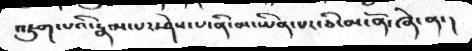འཇུག་པའི་རྣམ་པར་ཤེས་པ་ནི་མ་ཡིན་པར་ཅི་མངོན་ཞེ་ན་།
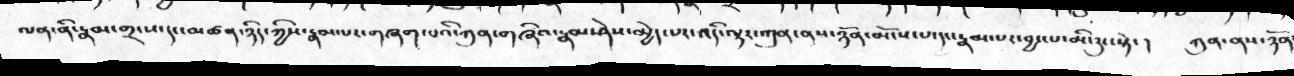ལན་ནི་རྣམ་གྲངས་དང་མཚན་ཉིད་ཀྱིས་རྣམ་པར་གཞག་པའི་ཀུན་གཞིའ་རྣམ་ཤེས་མྱེད་པར་འདི་ལྟར་ཀུན་ནས་ཉོན་མོངས་པ་དང་རྣམ་པར་བྱང་པ་མི་རུང་སྟེ་།  ཀུན་ནས་ཉོན་
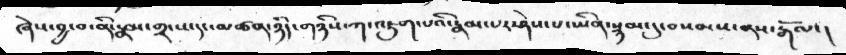ཞེས་བྱ་བ་ནི་རྣམ་གྲངས་དང་མཚན་ཉིད་གཉིས་ཀ་འཇུག་པའི་རྣམ་པར་ཤེས་པ་ཡིན་སྙམ་དུ་བསམས་ནས་རྒོལ་།
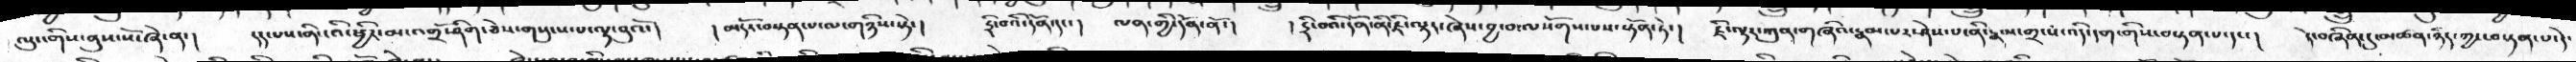ལུང་གིས་ནུས་སོ་ཞེ་ན་།   དད་པས་ནི་འི་ཕྱིར་མ་འགྲོ་ཤིག་ཅེས་གསུངས་པ་ལྟ་བུའོ་།   །མདོར་བསྟན་པ་ལ་གཉིས་སྟེ་།  དྲི་བའི་དོན་དང་།  ལན་གྱི་དོན་ནོ་།  །དྲི་བའི་དོན་ནི་ཇི་ལྟར་ཞེས་བྱ་བ་ལསོགས་པས་སྟོན་ཏེ་།  ཇི་ལྟར་ཀུན་གཞིའ་རྣམ་པར་ཤེས་པ་ནི་རྣམ་གྲངས་འདི་དག་གིས་བསྟན་པ་དང་།   དེ་བཞིན་དུ་མཚན་ཉིད་ཀྱང་བསྟན་པ་དེ་
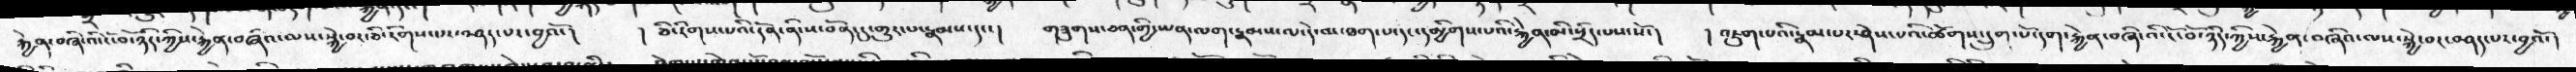རྐྱེན་བཞི་འི་ངོ་བོ་ཉིད་ཀྱིས་རྐྱེན་བཞིའ་ལས་སྐྱེ་བར་ཅི་རིགས་པར་བཤད་པར་བྱའོ་།   ། ཅི་རིགས་པའི་དོན་ནི་ས་བོན་དུ་གྱུར་པ་རྣམས་དང་།  གཟུགས་ཅན་གྱི་ཡན་ལག་རྣམས་ལ་དེ་མ་ཐག་པ་དང་དམྱིགས་པའི་རྐྱེན་མི་སྲིད་པས་སོ་།  །འཇུག་པའི་རྣམ་པར་ཤེས་པའི་ཚོགས་དྲུག་པོ་རྐྱེན་བཞི་འི་ངོ་བོ་ཉིད་ཀྱིས་རྐྱེན་བཞིའ་ལས་སྐྱེ་བར་བཤད་པར་བྱའོ་།
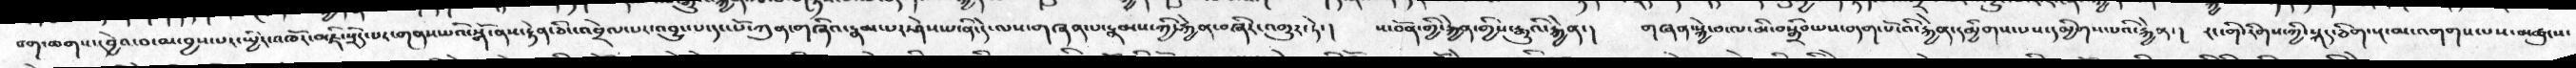བག་ཆགས་དབྱེའ་བ་མ་བྱས་པར་སྤྱིར་འཁོར་བ་ཇི་སྲིད་པར་གནས་པའི་སྒོ་ནས་རྟེན་ཅིང་འབྲེལ་པར་འབྱུང་པ་དང་པོ་ཀུན་གཞིའ་རྣམ་པར་ཤེས་པ་ནི་དེ་ལས་གཞན་པ་རྣམས་ཀྱི་རྐྱེན་བཞིར་འགྱུར་ཏེ་།   ས་བོན་གྱི་རྐྱེན་གྱིས་རྒྱུའི་རྐྱེན་།  གཞན་སྐྱེ་བ་ལ་མི་བསྒྲིབ་པས་བདག་པོ་འི་རྐྱེན་དམྱིགས་པས་དམྱིགས་པའི་རྐྱེན་།  རང་གི་རིགས་ཀྱི་སྐད་ཅིག་སྔ་མ་འགགས་པས་མཚུངས་
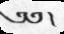༄༅།
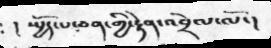༴  ། སྤྱོད་པ་ཅན་གྱི་རྟེན་འབྲེལ་ལོ་།
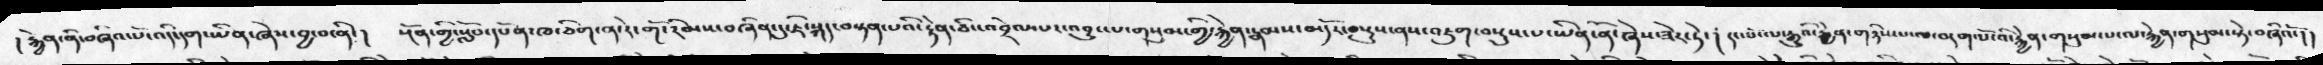།རྐྱེན་ནི་བཞིའ་པོ་འདི་དག་ཡིན་ཞེས་བྱ་བ་ནི་།  སྔོན་གྱི་སློབ་དཔོན་ཁ་ཅིག་ན་རེ་གོ་རིམས་བཞིན་དུ་ཇི་སྐད་བསྟན་པའི་རྟེན་ཅིང་འབྲེལ་པར་འབྱུང་པ་གསུམ་གྱི་རྐྱེན་རྣམས་མདོར་བསྡུས་ནས་འཇུག་བསྡུས་པ་ཡིན་ནོ་ཞེས་ཟེར་ཏེ་།  དང་པོ་ལ་རྒྱུའི་རྐྱེན་གཉིས་པ་ལ་བདག་པོ་འི་རྐྱེན་གསུམ་པ་ལ་རྐྱེན་གསུམ་སྟེ་བཞིའོ་།།
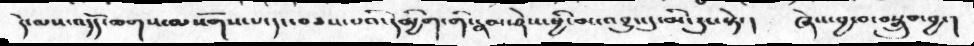དེ་ལས་འདོད་ཆགས་ལསོགས་པ་དང་བཅས་པའི་དམྱིག་གི་རྣམ་ཤེས་ཕྱི་མ་འབྱུང་དུ་མི་རུང་སྟེ་།   ཞེས་བྱ་བ་བསྒྲུབ་བྱ་།
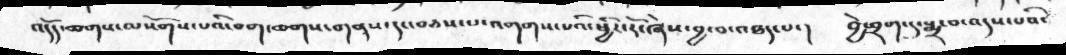འདོད་ཆགས་ལསོགས་པའི་བག་ཆགས་གནས་དང་བཅས་པ་འགགས་པའི་ཕྱིར་རོ་ཞེས་བྱ་བ་འཐད་པ་།   བྱེ་བྲག་དུ་སྨྲ་བ་འདས་པའི་
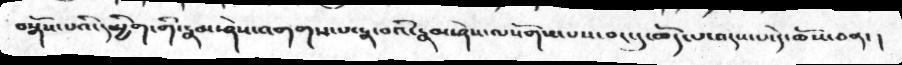བསྒོས་པའི་དམྱིག་གི་རྣམ་ཤེས་འགགས་པ་རྣ་བའི་རྣམ་ཤེས་ལསོགས་པས་བར་དུ་ཆོད་པ་འདས་པ་དེ་ཆོས་ཅན་།
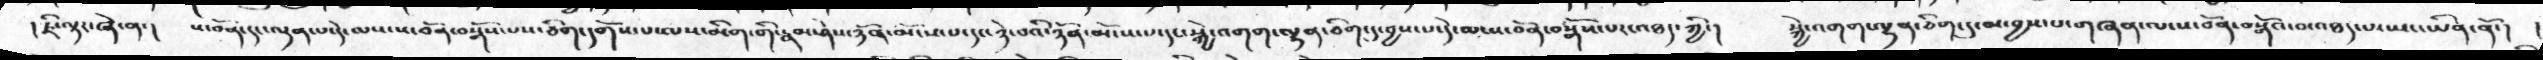།ཇི་ལྟར་ཞེ་ན་།  ས་བོན་དང་ལྡན་པ་དེ་ལས་ས་བོན་བསྒོས་པས་ཅིག་དགོས་པ་ལས་མིག་གི་རྣམ་ཤེས་ཉོན་མོངས་པ་དང་ཉེ་བའི་ཉོན་མོངས་པ་དང་སྐྱེ་འགག་ལྷན་ཅིག་དུ་བྱས་པ་དེ་ལ་ས་བོན་བསྒོས་པར་འཐད་ཀྱི་།  སྐྱེ་འགག་ལྷན་ཅིག་དུ་མ་བྱས་པ་གཞན་ལ་ས་བོན་བསྒོའ་བ་འཐད་པ་ཡང་ཡིན་ནོ་།   །
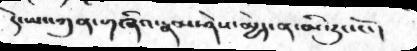དེ་ཡང་ཀུན་གཞིའ་རྣམ་ཤེས་མྱེད་ན་མི་རུང་ངོ་།
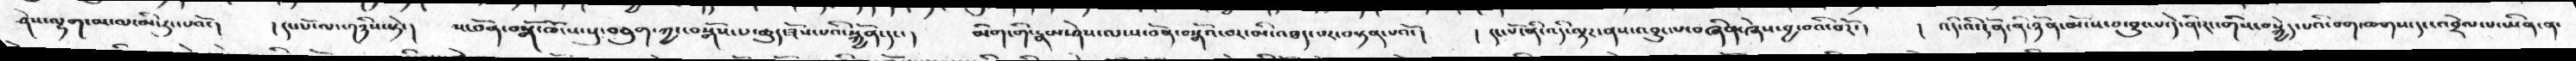ཤེས་ལྷག་མ་ལ་མི་རུང་པའོ་།  །དང་པོ་ལ་གཉིས་སྟེ་།  ས་བོན་བསྒོ་ཁོངས་སུ་བཅུག་ཀྱང་བསྒོས་པ་ཆུད་ཟོས་པའི་སྐྱོན་དང་།   མིག་གི་རྣམ་ཤེས་ལ་ས་བོན་བསྒོའ་བར་མི་འཐད་པར་བསྟན་པའོ་།   །དང་པོ་ནི་འདི་ལྟར་ནས་འབྱུང་པ་བཞིན་ཞེས་བྱ་བའི་བོར་།  །འདི་འི་དོན་ནི་ཉོན་མོངས་པ་བྱུང་པ་དེ་ནི་རང་གིས་བསྐྱེད་པའི་བག་ཆགས་དང་འབྲེལ་པ་ཡིན་ན་
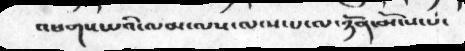འཕགས་པའི་ལམ་ལས་ལངས་པ་ལ་ཉོན་མོངས་པ་
